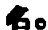名。
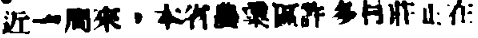近一周來，本省農業區許多村莊正在
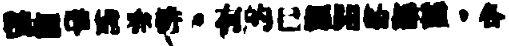積極準備春耕，有的已經開始播種，各
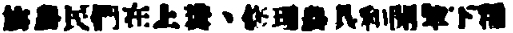族農民們在上糞、修理農具和開犂下種
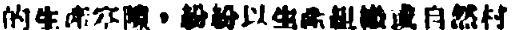的生產空隙，紛紛以生產組織或自然村
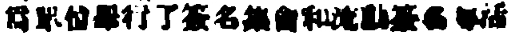爲單位舉行了簽名集會和流動簽名等活
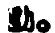動。
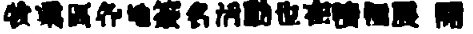牧業區各地簽名活動也在積極展開
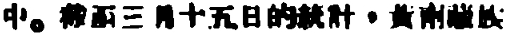中。截至三月十五日的統計，黃南藏族
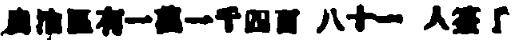自治區有一萬一千四百 八十一 人簽了
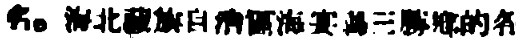名。海北藏族自治區海晏縣三勝鄉的各
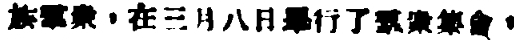族群眾，在三月八日舉行了羣衆集會，
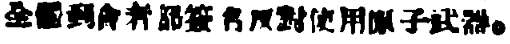全體到會者都簽名反對使用原子武器。
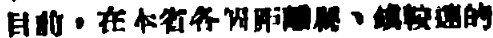目前，在本省各個距離縣、鎮較遠的
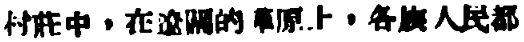村莊中，在遼闊的草原上，各族人民都
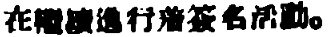在繼續進行着簽名活動。
